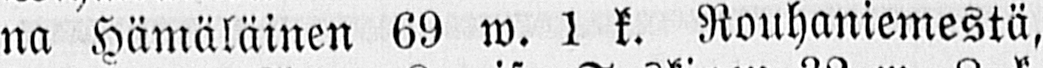na Hämäläinen 69 w. 1 k. Rauhaniemestä,
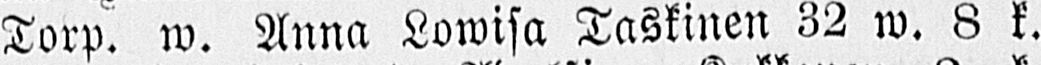Torp. w. Anna Lowisa Taskinen 32 w. 8 k.
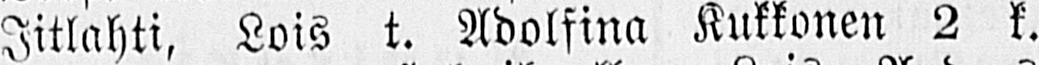Iitlahti, Lois t. Adolfina Kukkonen 2 k.
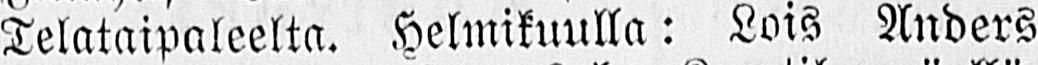Telataipaleelta. Helmikuulla: Lois Anders
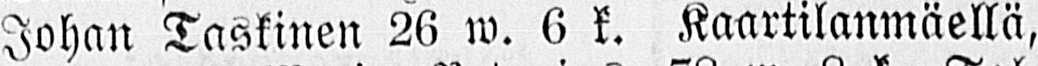Johan Taskinen 26 w. 6 k. Kaartilanmäellä,
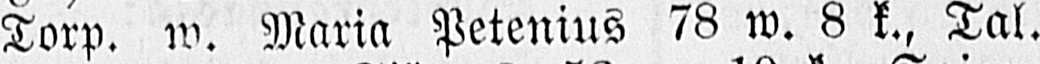Torp. w. Maria Petenius 78 w. 8 k., Tal-
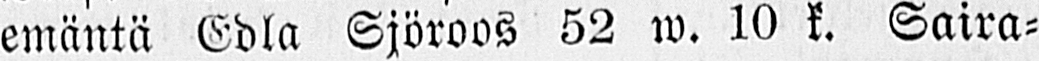emäntä Edla Sjöroos 52 w. 10 k. Saira-
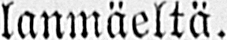lanmäeltä.
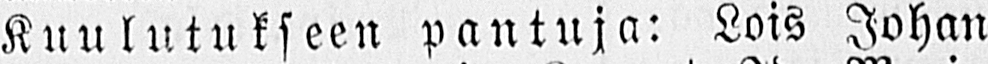Kuulutukseen pantuja: Lois Johan
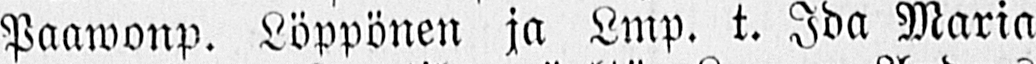Paawonp. Löppönen ja Lmp. t. Ida Maria
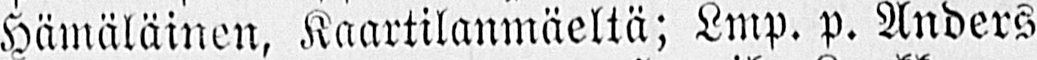Hämäläinen, Kaartilanmäeltä; Lmp. p. Anders
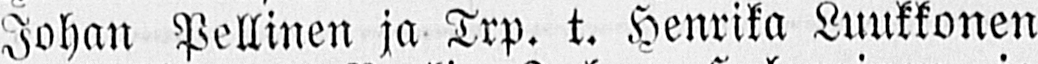Johan Pellinen ja Trp. t. Henrika Luukkonen
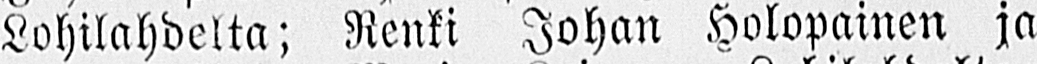Lohilahdelta; Renki Johan Holopainen ja
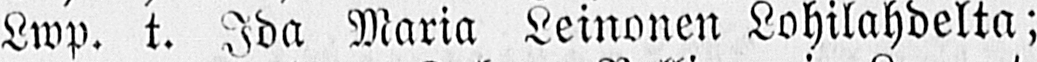Lwp. t. Ida Maria Leinonen Lohilahdelta;
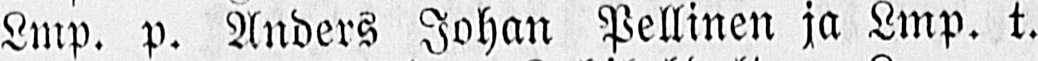Lmp. p. Anders Johan Pellinen ja Lmp. t.
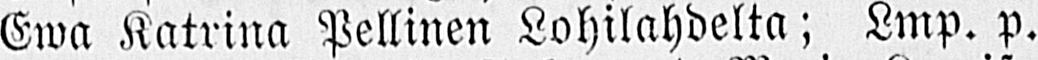Ewä Katrina Pellinen Lohilahdelta; Lmp. p.
